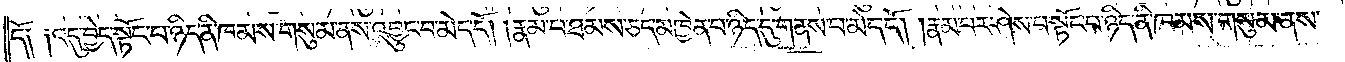དོ༑ ༑འདུ་བྱེད་སྟོང་པ་ཉིད་ནི་ཁམས་གསུམ་ནས་འབྱུང་བ་མེད་དོ། །རྣམ་པ་ཐམས་ཅད་མཁྱེན་པ་ཉིད་དུ་གནས་པ་མེད་དོ། །རྣམ་པར་ཤེས་པ་སྟོང་པ་ཉིད་ནི་ཁམས་གསུམ་ནས་
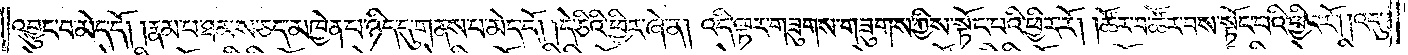འབྱུང་བ་མེད་དོ། །རྣམ་པ་ཐམས་ཅད་མཁྱེན་པ་ཉིད་དུ་གནས་པ་མེད་དོ། །དེ་ཅིའི་ཕྱིར་ཞེ་ན། འདི་ལྟར་གཟུགས་གཟུགས་ཀྱིས་སྟོང་པའི་ཕྱིར་རོ། །ཚོར་བ་ཚོར་བས་སྟོང་པའི་ཕྱིར་རོ། །འདུ་
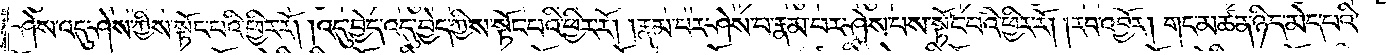ཤེས་འདུ་ཤེས་ཀྱིས་སྟོང་པའི་ཕྱིར་རོ། །འདུ་བྱེད་འདུ་བྱེད་ཀྱིས་སྟོང་པའི་ཕྱིར་རོ། །རྣམ་པར་ཤེས་པ་རྣམ་པར་ཤེས་པས་སྟོང་པའི་ཕྱིར་རོ། །རབ་འབྱོར། གང་མཚན་ཉིད་མེད་པའི་
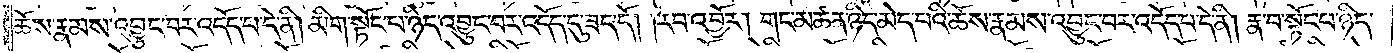ཆོས་རྣམས་འབྱུང་བར་འདོད་པ་དེ་ནི། མིག་སྟོང་པ་ཉིད་འབྱུང་བར་འདོད་དུ་ཟད་དོ། །རབ་འབྱོར། གང་མཚན་ཉིད་མེད་པའི་ཆོས་རྣམས་འབྱུང་བར་འདོད་པ་དེ་ནི། རྣ་བ་སྟོང་པ་ཉིད་
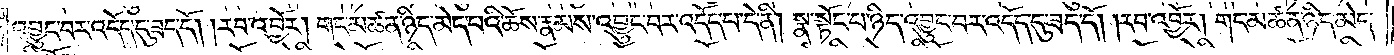འབྱུང་བར་འདོད་དུ་ཟད་དོ། །རབ་འབྱོར། གང་མཚན་ཉིད་མེད་པའི་ཆོས་རྣམས་འབྱུང་བར་འདོད་པ་དེ་ནི། སྣ་སྟོང་པ་ཉིད་འབྱུང་བར་འདོད་དུ་ཟད་དོ། །རབ་འབྱོར། གང་མཚན་ཉིད་མེད་
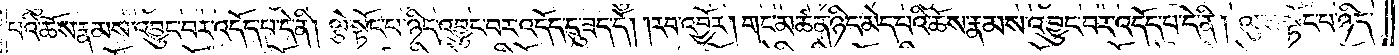པའི་ཆོས་རྣམས་འབྱུང་བར་འདོད་པ་དེ་ནི། ལྕེ་སྟོང་པ་ཉིད་འབྱུང་བར་འདོད་དུ་ཟད་དོ། །རབ་འབྱོར། གང་མཚན་ཉིད་མེད་པའི་ཆོས་རྣམས་འབྱུང་བར་འདོད་པ་དེ་ནི། ལུས་སྟོང་པ་ཉིད་
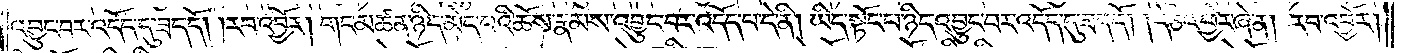འབྱུང་བར་འདོད་དུ་ཟད་དོ། །རབ་འབྱོར། གང་མཚན་ཉིད་མེད་པའི་ཆོས་རྣམས་འབྱུང་བར་འདོད་པ་དེ་ནི། ཡིད་སྟོང་པ་ཉིད་འབྱུང་བར་འདོད་དུ་ཟད་དོ། །དེ་ཅིའི་ཕྱིར་ཞེ་ན། རབ་འབྱོར།
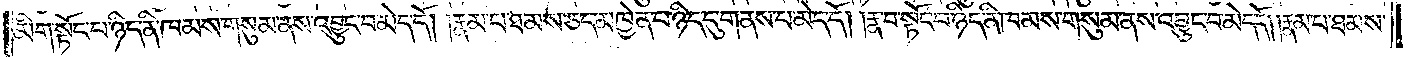མིག་སྟོང་པ་ཉིད་ནི་ཁམས་གསུམ་ནས་འབྱུང་བ་མེད་དོ། །རྣམ་པ་ཐམས་ཅད་མཁྱེན་པ་ཉིད་དུ་གནས་པ་མེད་དོ། །རྣ་བ་སྟོང་པ་ཉིད་ནི་ཁམས་གསུམ་ནས་འབྱུང་བ་མེད་དོ། །རྣམ་པ་ཐམས་
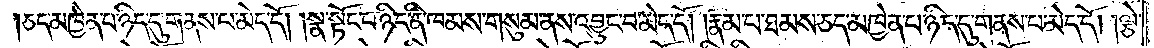ཅད་མཁྱེན་པ་ཉིད་དུ་གནས་པ་མེད་དོ། །སྣ་སྟོང་པ་ཉིད་ནི་ཁམས་གསུམ་ནས་འབྱུང་བ་མེད་དོ། །རྣམ་པ་ཐམས་ཅད་མཁྱེན་པ་ཉིད་དུ་གནས་པ་མེད་དོ། །ལྕེ་
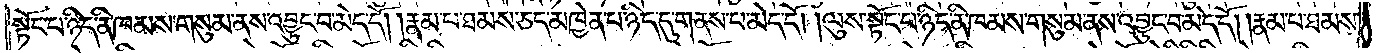སྟོང་པ་ཉིད་ནི་ཁམས་གསུམ་ནས་འབྱུང་བ་མེད་དོ། །རྣམ་པ་ཐམས་ཅད་མཁྱེན་པ་ཉིད་དུ་གནས་པ་མེད་དོ། །ལུས་སྟོང་པ་ཉིད་ནི་ཁམས་གསུམ་ནས་འབྱུང་བ་མེད་དོ། །རྣམ་པ་ཐམས་
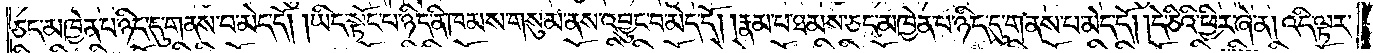ཅད་མཁྱེན་པ་ཉིད་དུ་གནས་པ་མེད་དོ། །ཡིད་སྟོང་པ་ཉིད་ནི་ཁམས་གསུམ་ནས་འབྱུང་བ་མེད་དོ། །རྣམ་པ་ཐམས་ཅད་མཁྱེན་པ་ཉིད་དུ་གནས་པ་མེད་དོ། །དེ་ཅིའི་ཕྱིར་ཞེ་ན། འདི་ལྟར་
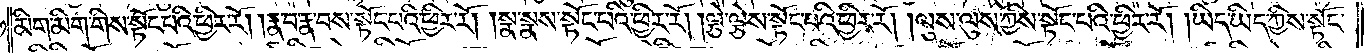མིག་མིག་གིས་སྟོང་པའི་ཕྱིར་རོ། །རྣ་བ་རྣ་བས་སྟོང་པའི་ཕྱིར་རོ། །སྣ་སྣས་སྟོང་པའི་ཕྱིར་རོ། །ལྕེ་ལྕེས་སྟོང་པའི་ཕྱིར་རོ། །ལུས་ལུས་ཀྱིས་སྟོང་པའི་ཕྱིར་རོ། །ཡིད་ཡིད་ཀྱིས་སྟོང་
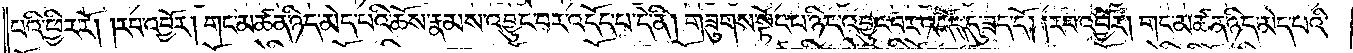པའི་ཕྱིར་རོ། །རབ་འབྱོར། གང་མཚན་ཉིད་མེད་པའི་ཆོས་རྣམས་འབྱུང་བར་འདོད་པ་དེ་ནི། གཟུགས་སྟོང་པ་ཉིད་འབྱུང་བར་འདོད་དུ་ཟད་དོ། །རབ་འབྱོར། གང་མཚན་ཉིད་མེད་པའི་
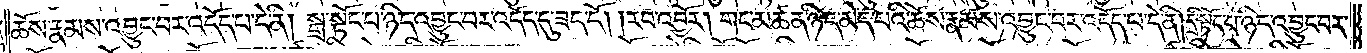ཆོས་རྣམས་འབྱུང་བར་འདོད་པ་དེ་ནི། སྒྲ་སྟོང་པ་ཉིད་འབྱུང་བར་འདོད་དུ་ཟད་དོ། །རབ་འབྱོར། གང་མཚན་ཉིད་མེད་པའི་ཆོས་རྣམས་འབྱུང་བར་འདོད་པ་དེ་ནི། དྲི་སྟོང་པ་ཉིད་འབྱུང་བར་
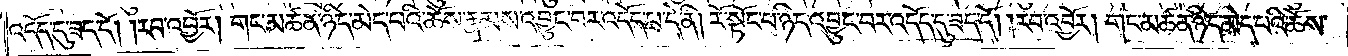འདོད་དུ་ཟད་དོ། །རབ་འབྱོར། གང་མཚན་ཉིད་མེད་པའི་ཆོས་རྣམས་འབྱུང་བར་འདོད་པ་དེ་ནི། རོ་སྟོང་པ་ཉིད་འབྱུང་བར་འདོད་དུ་ཟད་དོ། །རབ་འབྱོར། གང་མཚན་ཉིད་མེད་པའི་ཆོས་
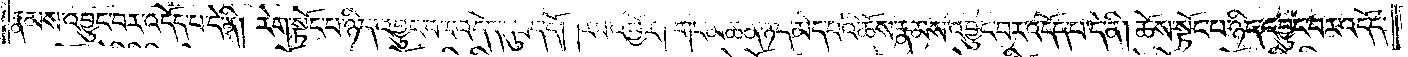རྣམས་འབྱུང་བར་འདོད་པ་དེ་ནི། རེག་སྟོང་པ་ཉིད་འབྱུང་བར་འདོད་དུ་ཟད་དོ། །རབ་འབྱོར། གང་མཚན་ཉིད་མེད་པའི་ཆོས་རྣམས་འབྱུང་བར་འདོད་པ་དེ་ནི། ཆོས་སྟོང་པ་ཉིད་འབྱུང་བར་འདོད་
